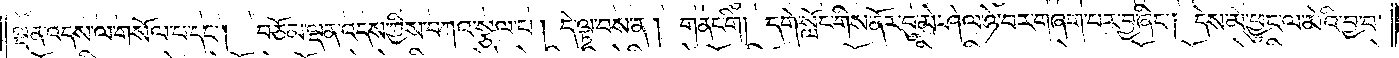ལྡན་འདས་ལ་གསོལ་པ་དང༌། བཅོམ་ལྡན་འདས་ཀྱིས་བཀའ་སྩལ་པ། དེ་ལྟ་བས་ན། གནང་གི །དགེ་སློང་གིས་ནོར་བུ་མེ་ཤེལ་ཉེ་བར་གཞག་པར་བྱ་ཞིང༌། དེས་མེ་ཕྱུང་ལ་མེའི་བྱ་བ་
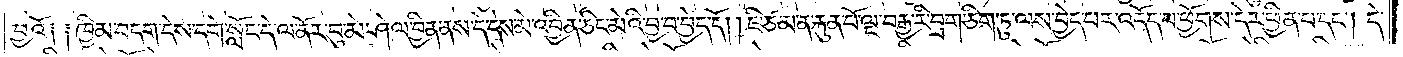བྱའོ༑ ༑ཁྱིམ་བདག་དེས་དགེ་སློང་དེ་ལ་ནོར་བུ་མེ་ཤེལ་བྱིན་ནས་དེ་དེས་མེ་འབྱིན་ཅིང་མེའི་བྱ་བ་བྱེད་དོ། །ཇི་ཙམ་ན་རྐུན་པོ་ལྔ་བརྒྱ་རི་བྲག་ཅིག་ཏུ་ལས་བྱེད་པར་འདོད་པ་ཕྱོགས་དེར་ཕྱིན་པ་དང༌། དེ་
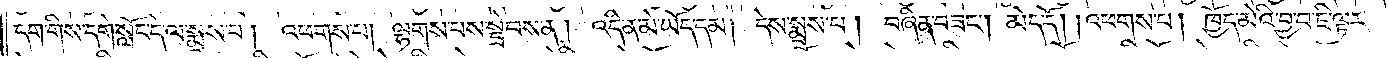དག་གིས་དགེ་སློང་དེ་ལ་སྨྲས་པ། འཕགས་པ། ལྷགས་པས་སྦྲེབས་ན། འདི་ན་མེ་ཡོད་དམ། དེས་སྨྲས་པ། བཞིན་བཟང༌། མེད་དོ། །འཕགས་པ། ཁྱོད་མེའི་བྱ་བ་ཇི་ལྟར་
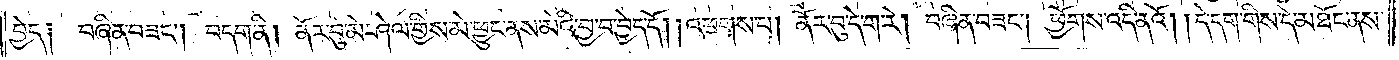བྱེད༑ བཞིན་བཟང༌། བདག་ནི། ནོར་བུ་མེ་ཤེལ་གྱིས་མེ་ཕྱུང་ནས་མེའི་བྱ་བ་བྱེད་དོ། །འཕགས་པ། ནོར་བུ་དེ་ག་རེ། བཞིན་བཟང༌། ཕྱོགས་འདི་ནའོ། །དེ་དག་གིས་དེ་མཐོང་ནས་
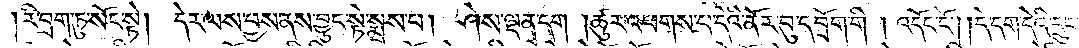རི་བྲག་ཏུ་སོང་སྟེ། དེར་ལས་བྱས་ནས་བྱུང་སྟེ་སྨྲས་པ། ཤེས་ལྡན་དག །ཚུར་འཕགས་པ་དེའི་ནོར་བུ་དབྲོག་གི །འདོང་ངོ༌། །དེ་དག་དེའི་དྲུང་
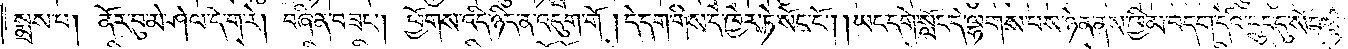སྨྲས་པ། ནོར་བུ་མེ་ཤེལ་དེ་ག་རེ། བཞིན་བཟང༌། ཕྱོགས་འདི་ཉིད་ན་འདུག་གོ །དེ་དག་གིས་དེ་ཁྱེར་ཏེ་སོང་ངོ༌། །ཡང་དགེ་སློང་དེ་ལྷགས་པས་ཉེན་ནས་ཁྱིམ་བདག་དེའི་དྲུང་དུ་སོང་སྟེ་
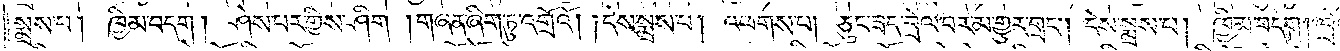སྨྲས་པ། ཁྱིམ་བདག ། ཤེས་པར་གྱིས་ཤིག །གཞན་ཞིག་ཏུ་འགྲོའོ། །དེས་སྨྲས་པ། འཕགས་པ། ཅུང་ཟད་བྲེལ་བར་མ་གྱུར་གྲང༌། དེས་སྨྲས་པ། ཁྱིམ་བདག། བྲེ
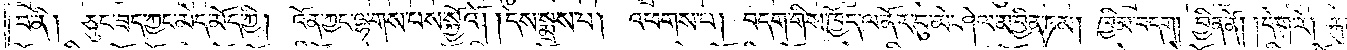བ་ནི། ཅུང་ཟད་ཀྱང་མེད་མོད་ཀྱི། འོན་ཀྱང་ལྷགས་པས་སྐྱོའོ། །དེས་སྨྲས་པ། འཕགས་པ། བདག་གིས་ཁྱོད་ལ་ནོར་བུ་མེ་ཤེལ་མ་བྱིན་ཏམ། ཁྱིམ་བདག །བྱིན་ནོ། །དེ་ག་རེ། རྐུ
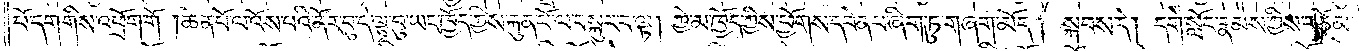པོ་དག་གིས་འཕྲོག་གོ །ཆེན་པོ་ལ་འོས་པའི་ནོར་བུ་དེ་ལྟ་བུ་ཡང་ཁྱོད་ཀྱིས་རྐུན་པོ་ལ་བསྐུར་བ་ལྟ། ཀྱེ་མ་ཁྱོད་ཀྱིས་ཕྱོགས་དབེན་པ་ཞིག་ཏུ་གཞག་མོད། སྐབས་དེ། དགེ་སློང་རྣམས་ཀྱིས་བཅོམ་
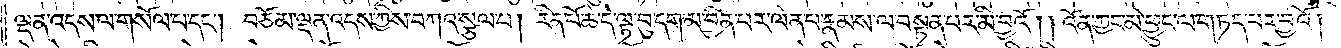ལྡན་འདས་ལ་གསོལ་པ་དང༌། བཅོམ་ལྡན་འདས་ཀྱིས་བཀའ་སྩལ་པ། རིན་པོ་ཆེ་དེ་ལྟ་བུ་དག་མ་བྱིན་པར་ལེན་པ་རྣམས་ལ་བསྟན་པར་མི་བྱའོ། །འོན་ཀྱང་མེ་ཕྱུང་ལ་གཏད་པར་བྱའོ །
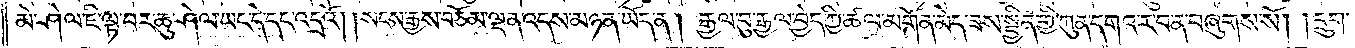མེ་ཤེལ་ཇི་ལྟ་བར་ཆུ་ཤེལ་ཡང་དེ་དང་འདྲའོ། །སངས་རྒྱས་བཅོམ་ལྡན་འདས་མཉན་ཡོད་ན། རྒྱལ་བུ་རྒྱལ་བྱེད་ཀྱི་ཚལ་མགོན་མེད་ཟས་སྦྱིན་གྱི་ཀུན་དགའ་ར་བ་ན་བཞུགས་སོ། །དྲུག་
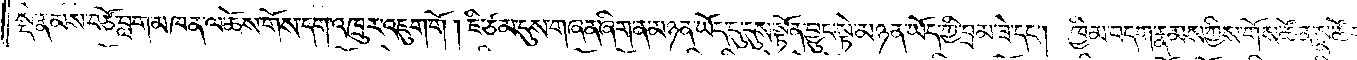སྡེ་རྣམས་བཙོ་བླག་མཁན་ལ་ཆོས་གོས་དག་འཁྲུར་འཇུག་གོ ། ཇི་ཙམ་དུས་གཞན་ཞིག་ན་མཉན་ཡོད་དུ་དུས་སྟོན་བྱུང་སྟེ་མཉན་ཡོད་ཀྱི་བྲམ་ཟེ་དང༌། ཁྱིམ་བདག་རྣམས་ཀྱིས་གོས་ཚོན་སྣ་ཚོ
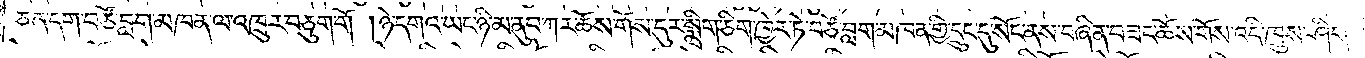ཅན་དག་བཙོ་བླག་མཁན་ལ་འཁྲུར་བཅུག་གོ །ཉེ་དགའ་ཡང་ཉི་མ་ནུབ་ཀར་ཆོས་གོས་དུར་སྨྲིག་ཅིག་ཁྱེར་ཏེ་བཙོ་བླག་མཁན་གྱི་དྲུང་དུ་སོང་ནས་བཞིན་བཟང་ཆོས་གོས་འདི་ཁྲུས་ཤིག།
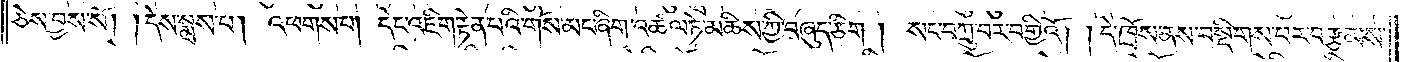ཅེས་བྱས་སོ། །དེས་སྨྲས་པ། འཕགས་པ། དེང་འཇིག་རྟེན་པའི་གོས་མང་ཞིག་འཚལ་ཏེ་མཆིས་ཀྱི་བཞུད་ཅིག །སང་བཀྲུ་བར་བགྱིའོ། །དེ་ཁྲོས་ནས་བསྡིགས་པར་བརྩམས་
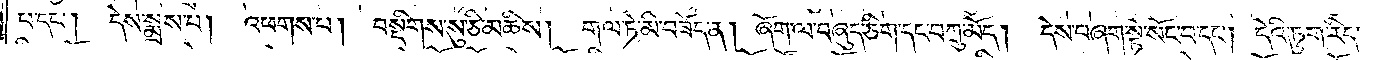པ་དང༌། དེས་སྨྲས་པ། འཕགས་པ། བསྡིགས་སུ་ཅི་མཆིས། གལ་ཏེ་མི་བཟོད་ན། ཞོག་ལ་བཞུད་ཅིག་དང་བཀྲུ་མོད། དེས་བཞག་སྟེ་སོང་བ་དང༌། དེའི་ཏུག་རིད་
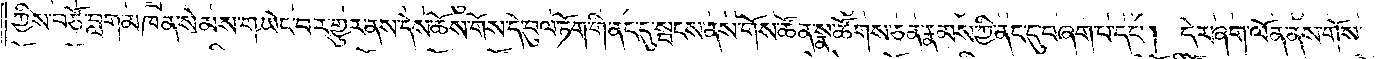ཀྱིས་བཙོ་བླག་མཁན་སེམས་གཡེང་བར་གྱུར་ནས་དེས་ཆོས་གོས་དེ་བུལ་ཏོག་གི་ནང་དུ་སྤངས་ནས་གོས་ཚོན་སྣ་ཚོགས་ཅན་རྣམས་ཀྱི་ནང་དུ་བཞག་པ་དང༌། དེར་ཞག་ལོན་ནས་གོས་
